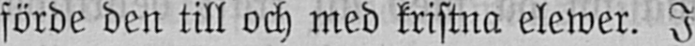förde den till och med kristna elewer. I
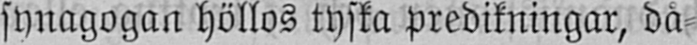synagogan höllos tyska predikningar, då-
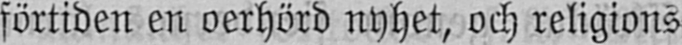förtiden en oerhörd nyhet, och religions-
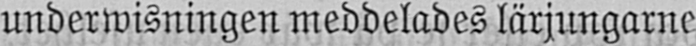underwisningen meddelades lärjungarne
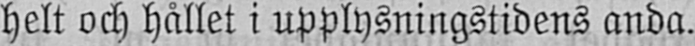helt och hållet i upplysningstidens anda.
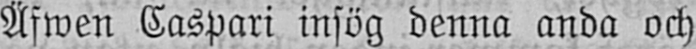Äfwen Caspari insög denna anda och
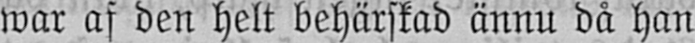war af den helt behärskad ännu då han
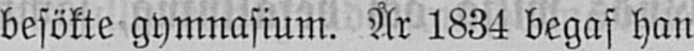besökte gymnasium. År 1834 begaf han
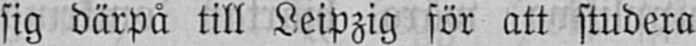sig därpå till Leipzig för att studera
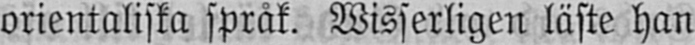orientaliska språk. Wisserligen läste han
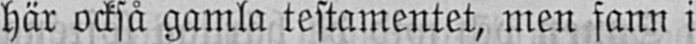här också gamla testamentet, men fann i
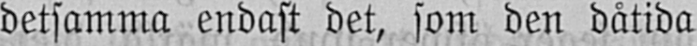detsamma endast det, som den dåtida
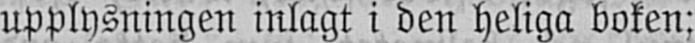upplysningen inlagt i den heliga boken:
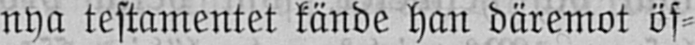nya testamentet kände han däremot öf-
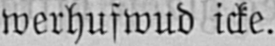werhufwud icke.
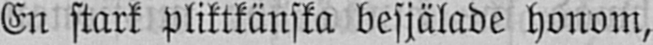En stark pliktkänsla besjälade honom,
